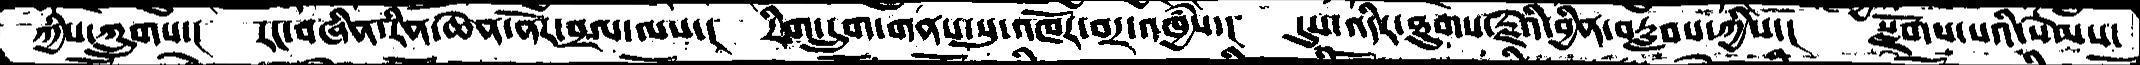ཀྱིས་ཀྲུགས་།    རང་བཞིན་རིན་ཆེན་ནོར་བྲལ་ལས་།   རིག་དྲུག་གནས་སུ་འཁོར་བར་འཁྱཾས་།   དུས་འདིར་ཐུགས་རྗེའི་བྱིན་བརླབས་ཀྱིས་།    སྫོགས་པའི་སེམས་
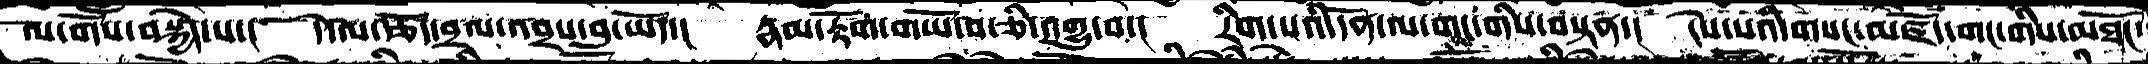ལ་གོས་བསྐྱེད་པ་།   དེ་ལ་རྩོད་བྲལ་འབྲས་བུ་ཡོད་།   རྣམ་རྟོག་གཡོ་བ་ཅི་འགྱུ་བ་།   རིག་པའི་དོན་ལ་གང་གིས་བསྟན་།   ངེས་པའི་གསང་མཛོད་གང་གིས་མཐོང་
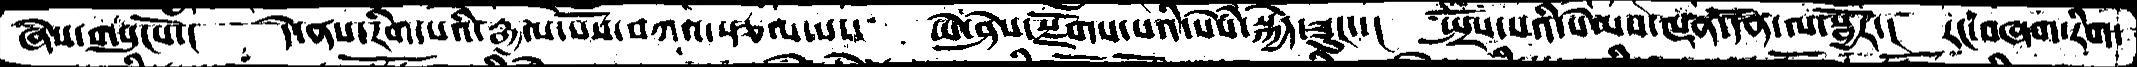ཞེས་གསུངསོ་།    དེ་ནས་རིག་པའི་རྒྱལ་པོས་བཀའ་སྩལ་པ་།  ཡེ་ཤེས་སྫོགས་པའི་སེསཾ་སྐྱེད་ཟུང་།   སྤྲོས་པའི་སེམས་ལྡན་དོན་ལ་སྦྱོར་།   རང་བཞག་རིག་
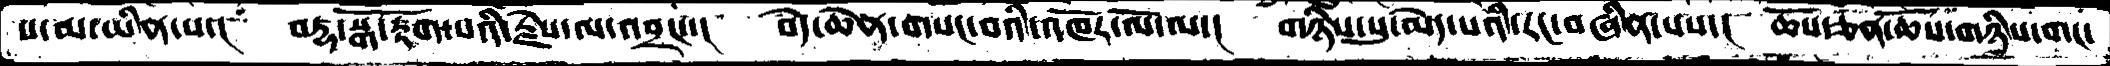པ་མ་ཡིན་པ་།    བརྡ་སྒོ་རྟོག་པའི་རྗེེས་ལ་འབྲང་།   བདེེ་ཆེན་གསང་བའི་འཁོར་ལོ་ལ་།    གཉིས་སུ་མེད་པའི་རང་བཞིན་པས་།   ཆོས་ཅན་ཆོས་གཉིས་གང་
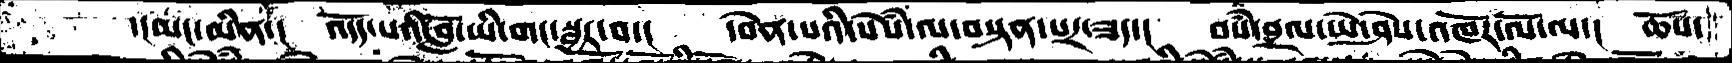་།མང་མིན་།  འདོད་པའི་བློ་ཡི་གང་སྦྱར་བ་།  དབེན་པའི་སེཾས་ལ་བསྟན་པར་ཟད་།  བསཾ་བྲལ་ཡེ་ཤེས་འཁོར་ལོ་ལ་།  ཆོས་
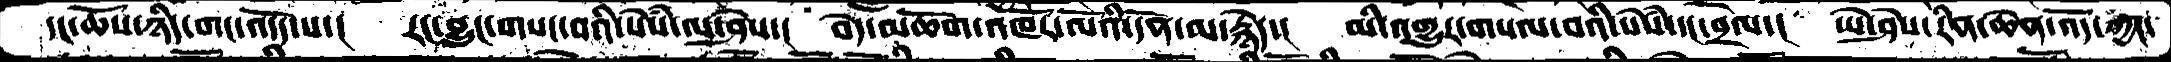དང་ཆོས་ཉིད་གང་འདོད་པ་།   རང་བྱུང་གསང་བའི་སེཾས་ལ་ཤེས་།  བདེ་མཆོག་འཁོར་ལོའི་དོན་མ་རྙེད་།  མི་འགྱུར་གསལ་བའི་སེཾས་དང་བྲལ་།  ཡེ་ཤེས་རིན་ཆེན་འོད་ཀྱང་
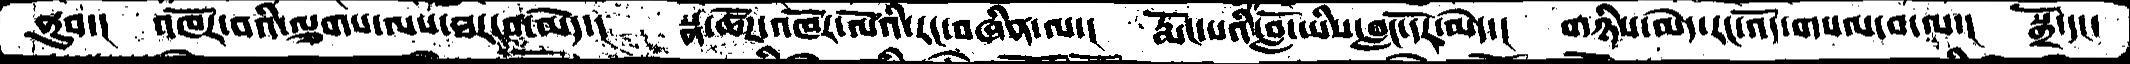ནུབ་།  འཁོར་བའི་ལྕགས་ལས་ཐར་བ་མེད་།  སྣ་ཚོཌ་འཁོར་ལོའི་རང་བཞིན་ལ་།  རྨོང་པའི་བློ་ཡིས་བླང་དོར་མེད་།  གཉིས་མེད་རང་འོད་གསལ་བ་ལ་།  སྒྲོ་དང་
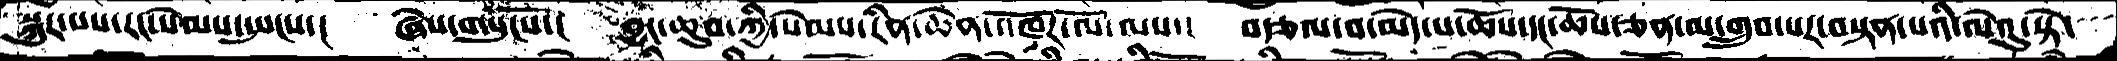སྐུར་པས་རང་སེམས་སྤངས་།     ཞེས་གསུངསོ་།   བྱང་ཆུབ་ཀྱི་སེམས་རིན་ཆེན་འཁོར་ལོ་ལས་།  བརྩལ་བ་མེད་པ་ཆོས་དང་ཆོས་ཅན་མ་གྲུབ་པར་བསྟན་པའི་ལེའུ་སྟེ་
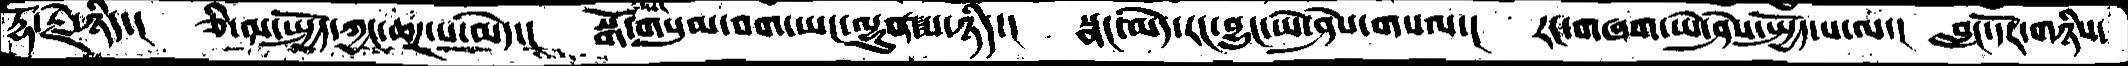རྡོ་རྗེ་ཉིད་།   ཅི་ལ་སྤྱོད་ཀྱང་ཆཌ་པ་མེད་།  སྒོ་གསུམ་བག་ཡང་ལྷུན་པ་ཉིད་།  སྣང་མེད་རང་བྱུང་ཡེ་ཤེས་གསལ་།  རང་གཞག་ཡེ་ཤེས་སྤྱོད་པ་ལ་།  བླང་དོར་གཉིས་
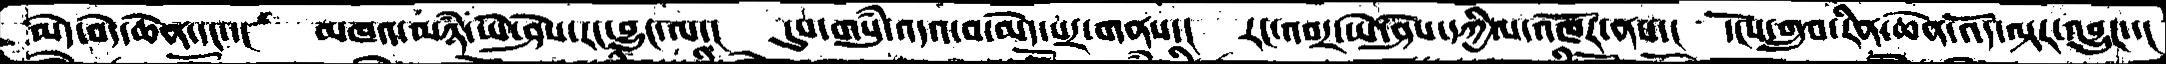མེད་བདེ་ཆེན་དང་་།  མཁའ་མཉཾ་ཡེ་ཤེས་རང་བྱུང་ལ་།  དུས་གསུཾ་འདའ་བ་མེད་པར་གནས་།  རང་འབར་ཡེ་ཤེས་དཀྱིལ་འཁོར་ནས་།  དངོས་གྲུབ་རིན་ཆེན་འོད་ལྟར་འབྱུང་་།
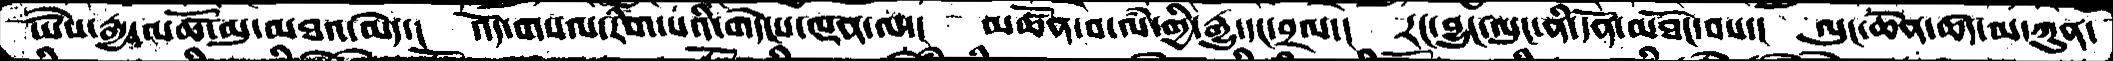ཡཻས་རྒྱ་མཚོ་མུ་མཐའ་མེད་།  འོད་གསལ་རིག་པའི་གདེངས་ལྡན་ལ་།  མཚོན་བ་ལཾ་གྱི་རྒྱུ་དང་བྲལ་།  རང་བྱུང་ལུང་ནི་དོན་མཐོང་བས་།  ལུང་ཆེན་ཚད་མ་ཀུན་
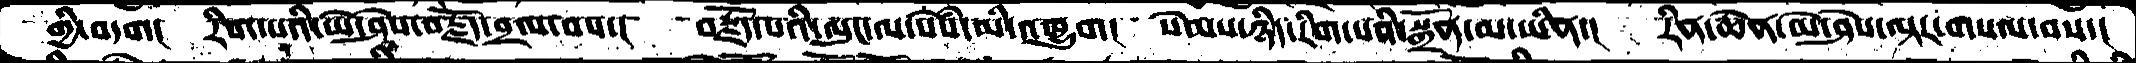གྱི་བདག།   རིག་པའི་ཡེ་ཤེས་བརྗོད་བྲལ་བས་།  བརྗོད་པའི་ལུང་ལ་སེཾས་མི་འཁྱུག།  སེམས་ཉིད་རིག་པའི་སྒྲོན་མ་ཡིན་།  རིན་ཆེན་མེ་ཤེས་ལྟར་གསལ་བས་།
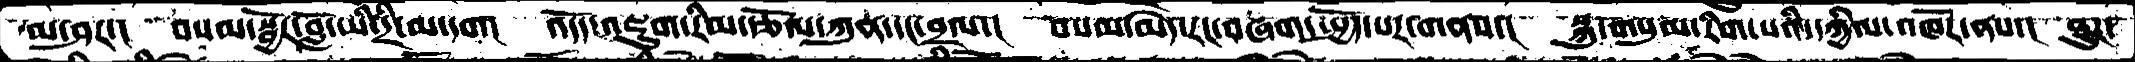མ་ཤར་།  བསམ་སྦྱོར་བློ་ཡི་དྲི་མ་དག།   འདོད་འཇུག་རིམ་རྩོལ་ཀུན་དང་བྲལ་།   བསམ་མེད་རང་བཞག་སྤྱོད་པར་གནས་།   སྐུ་གསུམ་རིག་པའི་དཀྱིལ་འཁོར་ནས་།  ཐུཌ་
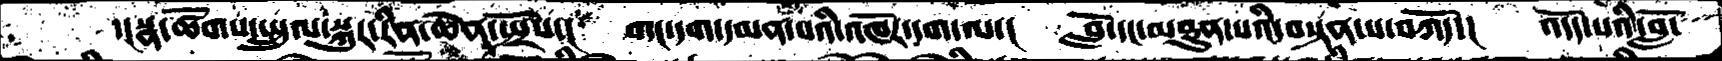།་སྣ་ཚོགས་སྤྲུལ་སྐུར་རིན་ཆེན་སྤྲོས་།    གང་དག་དམན་པའི་འཁོར་དག་ལ་།   བློ་དང་མཐུན་པའི་བསྟན་པ་བཀོད་།   འདོད་པའི་བློ་
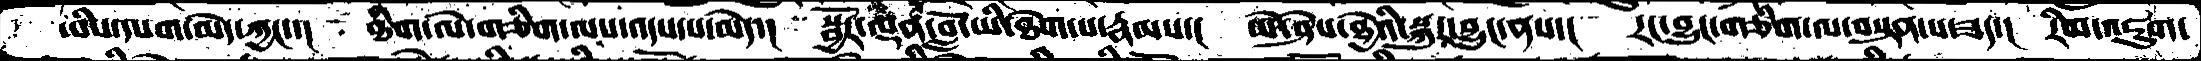ཡིས་དཔག་མེད་ཀྱང་།   ཐིག་ལེ་གཅིག་ལས་འདས་པ་མེེད་།  སྦྱོར་ལྡན་བློ་ཡི་ཐེག་པ་རྣམས་།   ཡེ་ཤེས་ཐྱེའི་སྐུར་བྱུང་ནས་།   རང་བྱུང་གཅིག་ལ་བསྟན་པ་ཟད་།   རིམ་འཇུག་
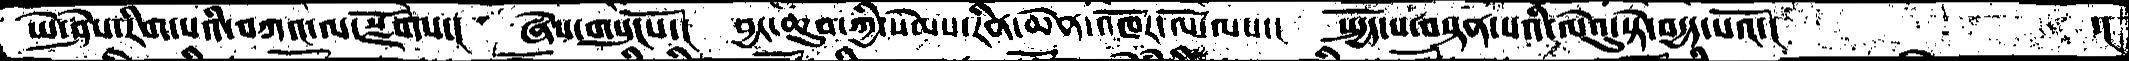ཡེ་ཤེས་རིག་པའི་བཀའ་ལ་སྫོགས་།   ཞེས་གསུངསོ་།   བྱང་ཆུབ་ཀྱི་སེམས་རིན་ཆེན་འཁོར་ལོ་ལས་།   སྤྱོད་པ་བསྟན་པའི་ལེའུ་སྟེ་བདྱད་པའོ་།          ་།
